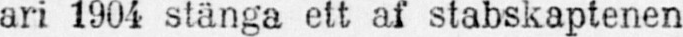ari 1904 stänga ett af stabskaptenen
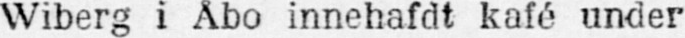Wiberg i Åbo innehafdt kafé under
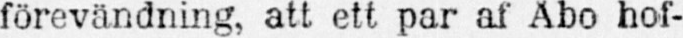förevändning, att ett par af Åbo hof-
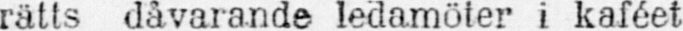rätts dåvarande ledamöter i kaféet
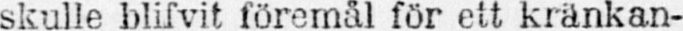skulle blifvit föremål för ett kränkan-
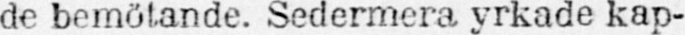de bemötande. Sedermera yrkade kap-
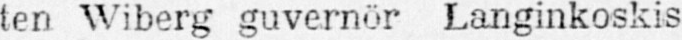ten Wiberg guvernör Langinkoskis
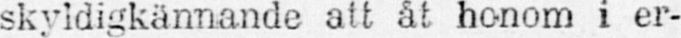skyldigkännande att åt honom i er-
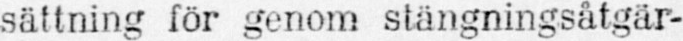sättning för genom stängningsåtgär-
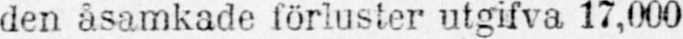den åsamkade förluster utgifva 17,000
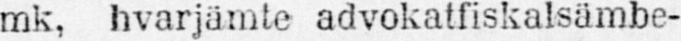mk, hvarjämte advokatfiskalsämbe-
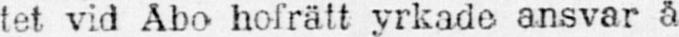tet vid Åbo hofrätt yrkade ansvar å
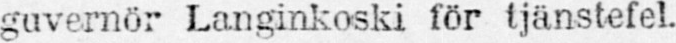guvernör Langinkoski för tjänstefel.
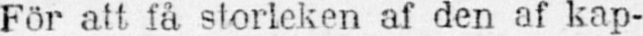För att få storleken af den af kap-
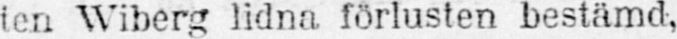ten Wiberg lidna förlusten bestämd,
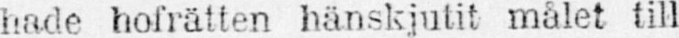hade hofrätten hänskjutit målet till
